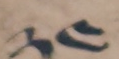༢༤
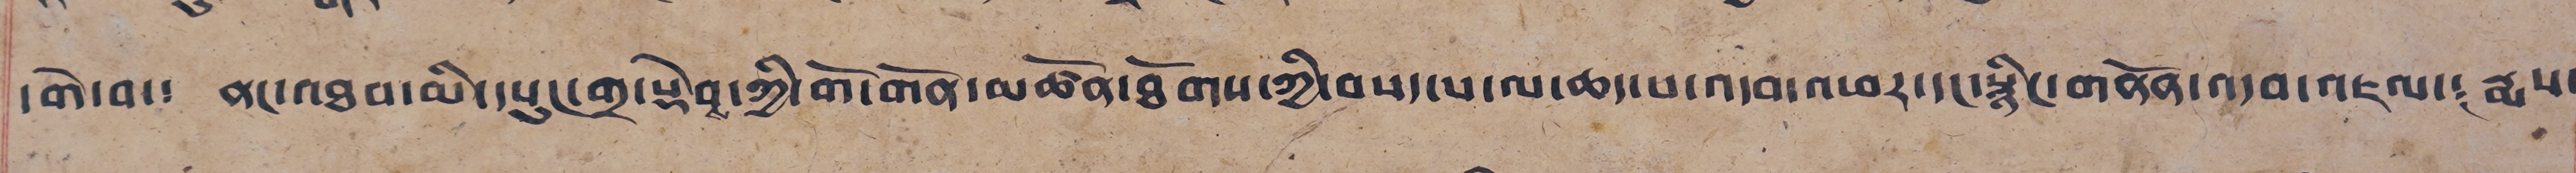དགེ་བ་༴ ནང་འཐབ་མི་དཔུང་གྲ་སྡེབ་ཀྱི་གོ་གོན་མཚོན་ཐོགས་ཀྱི་བསད་པ་ལ་ཆད་པ་འདབ་འཕར་དང་སྙིང་གནོན་འདབ་འཇལ་༴ རྨས་
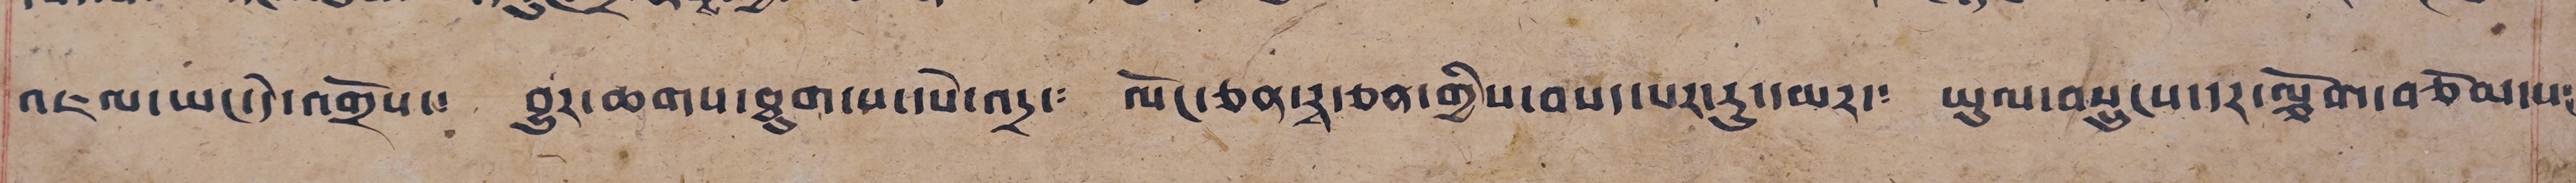འཇལ་ཡང་དེ་འགྲོས་༴ བྱུར་ཆགས་ཐུག་པ་དཔེ་འདྲ་༴ ལོང་ཅན་རྭ་ཅན་གྱིས་བསད་པར་རུ་དམར་༴ ཡུལ་བསྲུངས་དར་ལྕོག་བཅོམ་པ༴
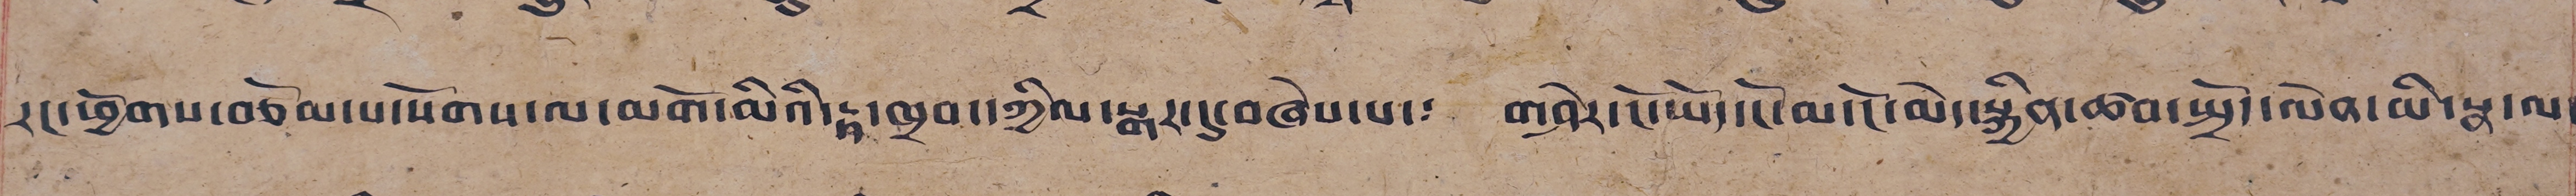རང་ཕྱོགས་བཅོམ་པ་སོགས་ལ་མགོ་མིའི་རྟ་ཁྲབ་དཀྱིལ་སྒར་དུ་བཞེས་པ་༴ གཤེར་ངོ་ཡོད་ངོ་མ་ངོ་མེད་སྐྱིན་ཚབ་སྤྲོད་ལེན་མི་སྣ་ལ་
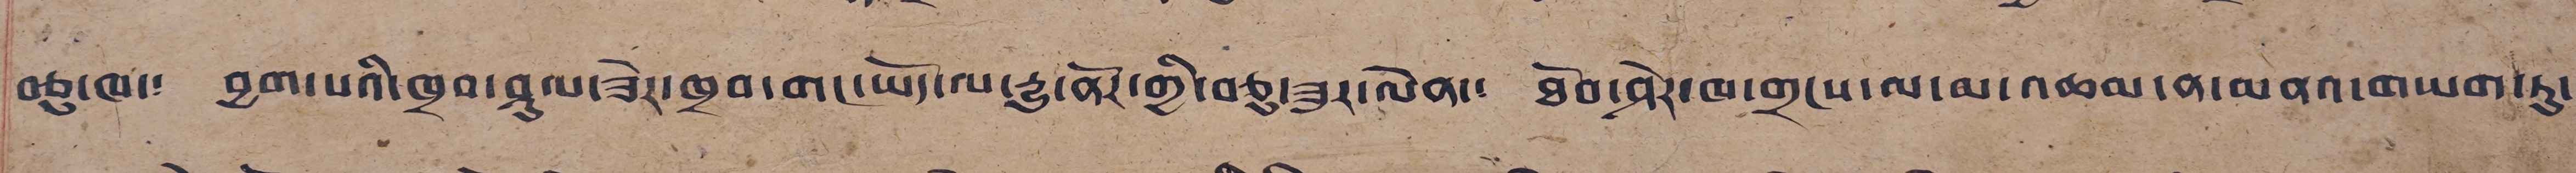ཆུ་ཁ་༴ བྱག་པའི་ཁྲབ་ཤུལ་ཟེར་བྲབ་གང་ཡོད་ལ་རྒྱུ་ནོར་གྱི་བཅུ་ཟར་ལེན་༴ ཐོབ་ཤེར་ཁ་གྲངས་ལ་མ་འཆམ་ན་མབའ་གཡག་ཏུ་
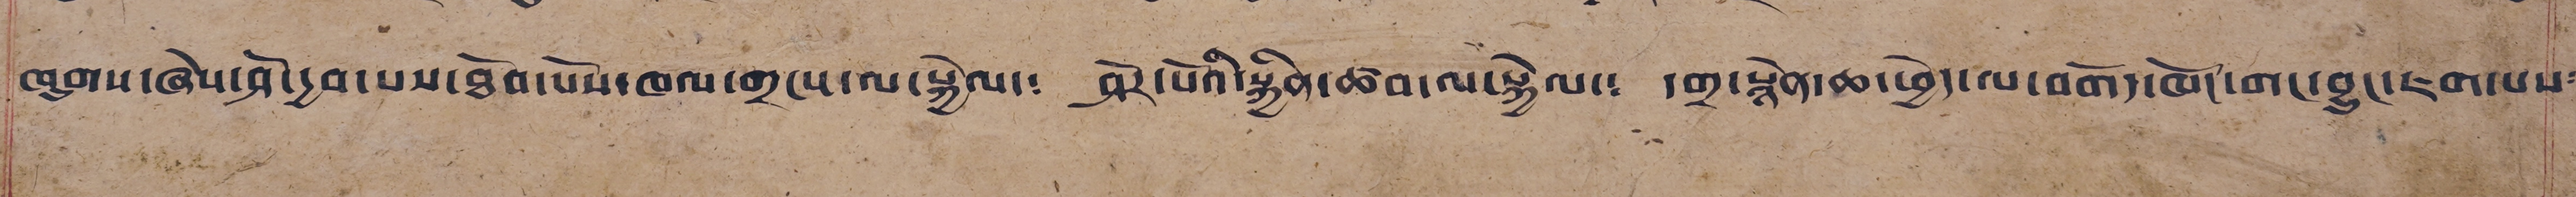ཁུགས་ཞེས་ཤོ་དྱབ་པས་ཐོབ་པོས་ཁལ་གྲངས་ལ་སྐྱེལ་༴ ཤེར་པོའི་སྐྱིན་ཚབ་ལ་སྐྱེལ་༴ དགྲ་སྙེན་ཆ་ཕྱེད་ལ་བགོད་ཁོང་གང་བྱུང་ཇག་པས༴
